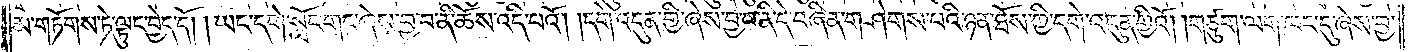མ་གཏོགས་ཏེ་ལྟུང་བྱེད་དོ། །ཡང་དགེ་སློང་གང་ཞེས་བྱ་བ་ནི་ཆོས་འདི་པའོ། །དགེ་འདུན་གྱི་ཞེས་བྱ་བ་ནི་དེ་བཞིན་གཤེགས་པའི་ཉན་ཐོས་ཀྱི་དགེ་འདུན་གྱིའོ། །གཙུག་ལག་ཁང་དུ་ཞེས་བྱ་
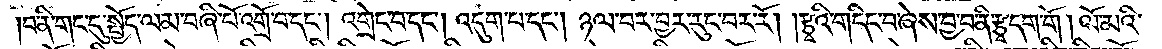བ་ནི་གང་དུ་སྤྱོད་ལམ་བཞི་པོ་འགྲོ་བ་དང༌། འགྲེང་བ་དང༌། འདུག་པ་དང༌། ཉལ་བར་བྱར་རུང་བར་རོ། །རྩྭའི་གདིང་བ་ཞེས་བྱ་བ་ནི་རྩྭ་དག་གོ །ལོ་མའི་
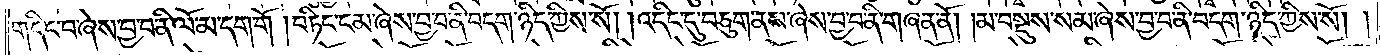གདིང་བ་ཞེས་བྱ་བ་ནི་ལོ་མ་དག་གོ །བཏིང་ངམ་ཞེས་བྱ་བ་ནི་བདག་ཉིད་ཀྱིས་སོ། །འདིང་དུ་བཅུག་ནས་ཞེས་བྱ་བ་ནི་གཞན་ནོ། །མ་བསྡུས་སམ་ཞེས་བྱ་བ་ནི་བདག་ཉིད་ཀྱིས་སོ། །
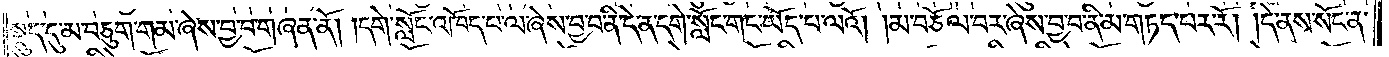སྡུད་དུ་མ་བཅུག་གམ་ཞེས་བྱ་བ་གཞན་ནོ། །དགེ་སློང་འཁོད་པ་ལ་ཞེས་བྱ་བ་ནི་དེ་ན་དགེ་སློང་གང་ཡོད་པ་ལའོ། །མ་བཅོལ་བར་ཞེས་བྱ་བ་ནི་མ་གཏད་པར་རོ། །དེ་ནས་སོང་ན་
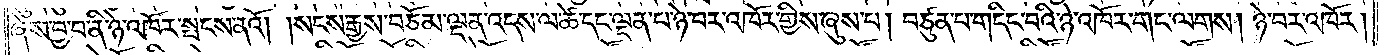ཞེས་བྱ་བ་ནི་ཉེ་འཁོར་སྤངས་ནའོ། །སངས་རྒྱས་བཅོམ་ལྡན་འདས་ལ་ཚེ་དང་ལྡན་པ་ཉེ་བར་འཁོར་གྱིས་ཞུས་པ། བཙུན་པ་གདིང་བའི་ཉེ་འཁོར་གང་ལགས། ཉེ་བར་འཁོར།
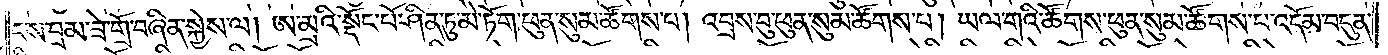ངས་བྲམ་ཟེ་གྲོ་བཞིན་སྐྱེས་ལ། ཨ་མྲའི་སྡོང་པོ་ཤིན་ཏུ་མེ་ཏོག་ཕུན་སུམ་ཚོགས་པ། འབྲས་བུ་ཕུན་སུམ་ཚོགས་པ། ཡལ་གའི་ཚོགས་ཕུན་སུམ་ཚོགས་པ་འདོམ་བདུན་
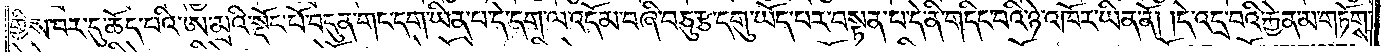གྱིས་བར་དུ་ཆོད་པའི་ཨ་མྲའི་སྡོང་པོ་བདུན་གང་དག་ཡིན་པ་དེ་དག་ལ་འདོམ་བཞི་བཅུ་རྩ་དགུ་ཡོད་པར་བསྟན་པ་དེ་ནི་གདིང་བའི་ཉེ་འཁོར་ཡིན་ནོ། །དེ་འདྲ་བའི་རྐྱེན་མ་གཏོགས་
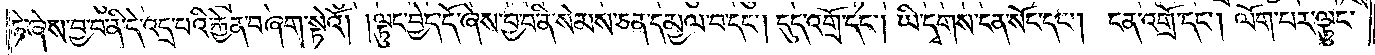ཏེ་ཞེས་བྱ་བ་ནི་དེ་འདྲ་བའི་རྐྱེན་བཞག་སྟེའོ། །ལྟུང་བྱེད་དོ་ཞེས་བྱ་བ་ནི་སེམས་ཅན་དམྱལ་བ་དང༌། དུད་འགྲོ་དང༌། ཡི་དྭགས་ངན་སོང་དང༌། ངན་འགྲོ་དང༌། ལོག་པར་ལྟུང་
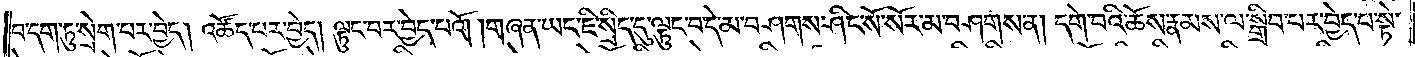བ་དག་ཏུ་སྲེག་པར་བྱེད། འཚོད་པར་བྱེད། ལྟུང་བར་བྱེད་པའོ། །གཞན་ཡང་ཇི་སྲིད་དུ་ལྟུང་བ་དེ་མ་བཤགས་ཤིང་སོ་སོར་མ་བཤགས་ན། དགེ་བའི་ཆོས་རྣམས་ལ་སྒྲིབ་པར་བྱེད་པ་སྟེ་
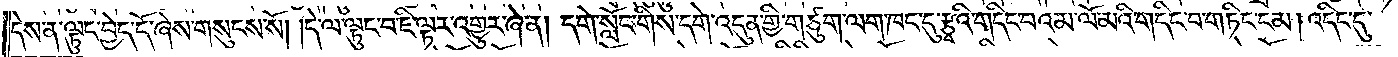དེས་ན་ལྟུང་བྱེད་དོ་ཞེས་གསུངས་སོ། །དེ་ལ་ལྟུང་བ་ཇི་ལྟར་འགྱུར་ཞེ་ན། དགེ་སློང་གིས་དགེ་འདུན་གྱི་གཙུག་ལག་ཁང་དུ་རྩྭའི་གདིང་བའམ་ལོ་མའི་གདིང་བ་གཏིང་ངམ། འདིང་དུ་
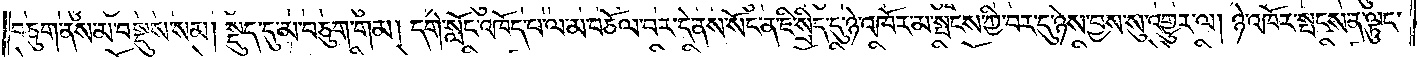བཅུག་ནས་མ་བསྡུས་སམ། སྡུད་དུ་མ་བཅུག་གམ། དགེ་སློང་འཁོད་པ་ལ་མ་བཅོལ་བར་དེ་ནས་སོང་ན་ཇི་སྲིད་དུ་ཉེ་འཁོར་མ་སྤངས་ཀྱི་བར་དུ་ཉེས་བྱས་སུ་འགྱུར་ལ། ཉེ་འཁོར་སྤངས་ན་ལྟུང་
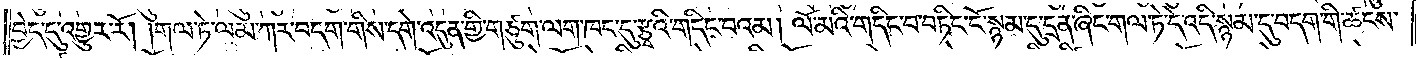བྱེད་དུ་འགྱུར་རོ། །གལ་ཏེ་ལམ་ཀར་བདག་གིས་དགེ་འདུན་གྱི་གཙུག་ལག་ཁང་དུ་རྩྭའི་གདིང་བའམ། ལོ་མའི་གདིང་བ་བཏིང་ངོ་སྙམ་དུ་དྲན་ཞིང་གལ་ཏེ་དེ་འདི་སྙམ་དུ་བདག་གི་ཚངས་
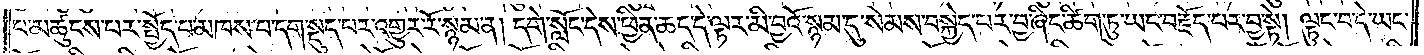པ་མཚུངས་པར་སྤྱོད་པ་མཁས་པ་དག་སྡུད་པར་འགྱུར་རོ་སྙམ་ན། དགེ་སློང་དེས་ཕྱིན་ཆད་དེ་ལྟར་མི་བྱའོ་སྙམ་དུ་སེམས་བསྐྱེད་པར་བྱ་ཞིང་ཚིག་ཏུ་ཡང་བརྗོད་པར་བྱ་སྟེ། ལྟུང་བ་དེ་ཡང་
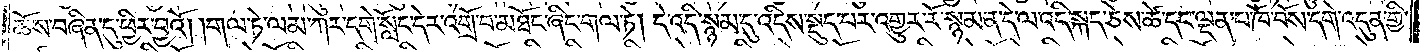ཆོས་བཞིན་དུ་ཕྱིར་བྱའོ། །གལ་ཏེ་ལམ་ཀར་དགེ་སློང་དེར་འགྲོ་བ་མཐོང་ཞིང་གལ་ཏེ། དེ་འདི་སྙམ་དུ་འདིས་སྡུད་པར་འགྱུར་རོ་སྙམ་ན་དེ་ལ་འདི་སྐད་ཅེས་ཚེ་དང་ལྡན་པ་ཁོ་བོས་དགེ་འདུན་གྱི་
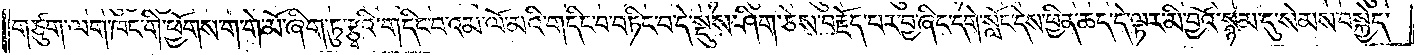གཙུག་ལག་ཁང་གི་ཕྱོགས་ག་གེ་མོ་ཞིག་ཏུ་རྩྭའི་གདིང་བའམ་ལོ་མའི་གདིང་བ་བཏིང་བ་དེ་སྡུས་ཤིག་ཅེས་བརྗོད་པར་བྱ་ཞིང་དགེ་སློང་དེས་ཕྱིན་ཆད་དེ་ལྟར་མི་བྱའོ་སྙམ་དུ་སེམས་བསྐྱེད་
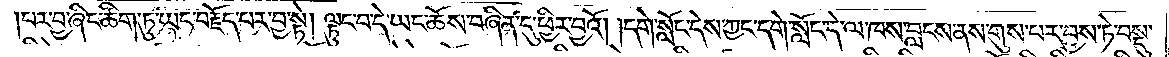པར་བྱ་ཞིང་ཚིག་ཏུ་ཡང་བརྗོད་པར་བྱ་སྟེ། ལྟུང་བ་དེ་ཡང་ཆོས་བཞིན་དུ་ཕྱིར་བྱའོ། །དགེ་སློང་དེས་ཀྱང་དགེ་སློང་དེ་ལ་ཁས་བླངས་ནས་གུས་པར་བྱས་ཏེ་བསྡུ་
